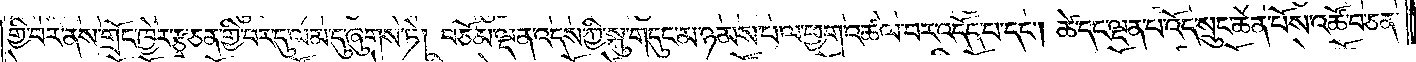གྱི་བར་ནས་གྲོང་ཁྱེར་རྩྭ་ཅན་གྱི་བར་དུ་ལམ་དུ་ཞུགས་ཏེ། བཅོམ་ལྡན་འདས་ཀྱི་སྐུ་གདུང་མ་ཉམས་པ་ལ་ཕྱག་འཚལ་བར་འདོད་པ་དང༌། ཚེ་དང་ལྡན་པ་འོད་སྲུང་ཆེན་པོས་འཚོ་བ་ཅན་
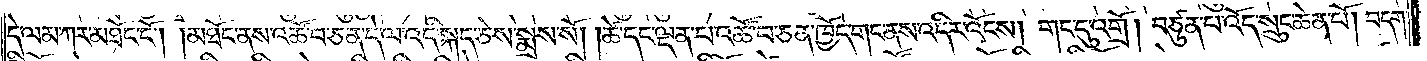དེ་ལམ་ཀར་མཐོང་ངོ༌། །མཐོང་ནས་འཚོ་བ་ཅན་དེ་ལ་འདི་སྐད་ཅེས་སྨྲས་སོ། །ཚེ་དང་ལྡན་པ་འཚོ་བ་ཅན་ཁྱོད་གང་ནས་འདིར་འོངས། གང་དུ་འགྲོ། བཙུན་པ་འོད་སྲུང་ཆེན་པོ། བདག་
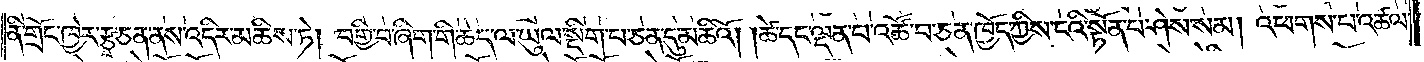ནི་གྲོང་ཁྱེར་རྩྭ་ཅན་ནས་འདིར་མཆིས་ཏེ། བགྱི་བ་ཞིག་གི་ཆེད་ལ་ཡུལ་སྡིག་པ་ཅན་དུ་མཆིའོ། །ཚེ་དང་ལྡན་པ་འཚོ་བ་ཅན་ཁྱོད་ཀྱིས་ངའི་སྟོན་པ་ཤེས་སམ། འཕགས་པ་འཚལ་
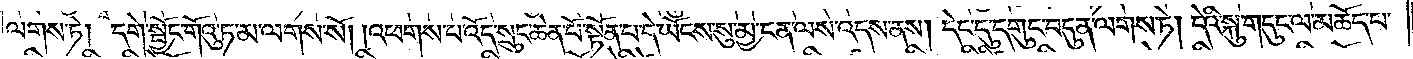ལགས་ཏེ། དགེ་སྦྱོང་གོའུ་ཏ་མ་ལགས་སོ། །འཕགས་པ་འོད་སྲུང་ཆེན་པོ་སྟོན་པ་དེ་ཡོངས་སུ་མྱ་ངན་ལས་འདས་ནས། དེང་དུ་དགུང་བདུན་ལགས་ཏེ། དེའི་སྐུ་གདུང་ལ་མཆོད་པ་
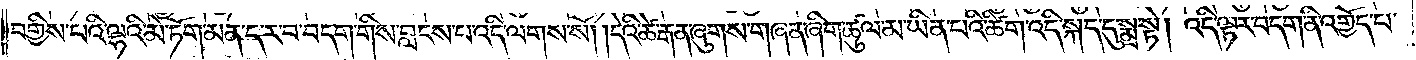བགྱིས་པའི་ལྷའི་མེ་ཏོག་མན་ད་ར་བ་བདག་གིས་བླངས་པ་འདི་ལགས་སོ། །དེའི་ཚེ་རྒན་ཞུགས་གཞན་ཞིག་ཚུལ་མ་ཡིན་པའི་ཚིག་འདི་སྐད་དུ་སྨྲ་སྟེ། འདི་ལྟར་བདག་ནི་འགྱོད་པ་
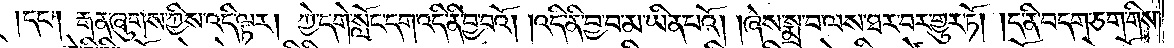།དང༌། རྒན་ཞུགས་ཀྱིས་འདི་ལྟར། ཀྱེ་དགེ་སློང་དག་འདི་ནི་བྱ་བའོ། །འདི་ནི་བྱ་བ་མ་ཡིན་པའོ། །ཞེས་སྨྲ་བ་ལས་ཐར་བར་གྱུར་ཏོ། །ད་ནི་བདག་ཅག་གིས་
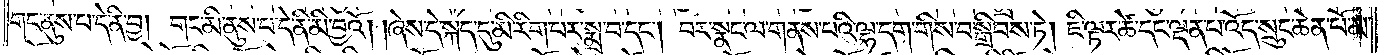གང་ནུས་པ་དེ་ནི་བྱ། གང་མི་ནུས་པ་དེ་ནི་མི་བྱའོ། །ཞེས་དེ་སྐད་དུ་མི་རིག་པར་སྨྲ་བ་དང༌། བར་སྣང་ལ་གནས་པའི་ལྷ་དག་གིས་བསྒྲིབས་ཏེ། ཇི་ལྟར་ཚེ་དང་ལྡན་པ་འོད་སྲུང་ཆེན་པོ་མ་
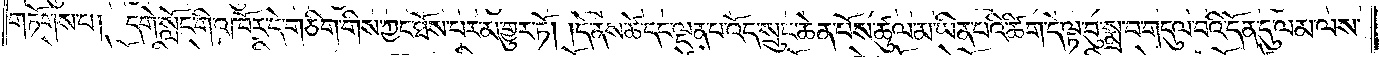གཏོགས་པ། དགེ་སློང་གི་འཁོར་དེ་གཅིག་གིས་ཀྱང་ཐོས་པར་མ་གྱུར་ཏོ། །དེ་ནས་ཚེ་དང་ལྡན་པ་འོད་སྲུང་ཆེན་པོས་ཚུལ་མ་ཡིན་པའི་ཚིག་དེ་ལྟ་བུ་སྨྲ་བ་གདུལ་བའི་དོན་དུ་ལམ་ལས་
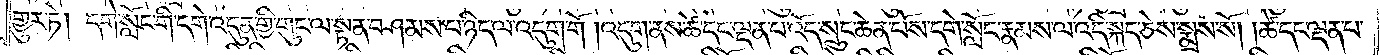གྱུར་ཏེ། དགེ་སློང་གི་དགེ་འདུན་གྱི་གུང་ལ་སྟན་བཤམས་པ་ཉིད་ལ་འདུག་གོ །འདུག་ནས་ཚེ་དང་ལྡན་པ་འོད་སྲུང་ཆེན་པོས་དགེ་སློང་རྣམས་ལ་འདི་སྐད་ཅེས་སྨྲས་སོ། །ཚེ་དང་ལྡན་པ་
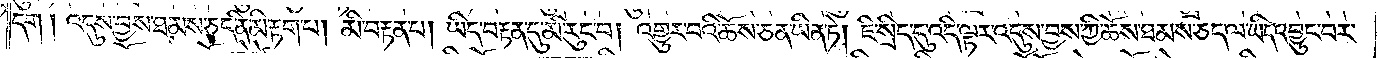དག། འདུས་བྱས་ཐམས་ཅད་ནི་མི་རྟག་པ། མི་བརྟན་པ། ཡིད་བརྟན་དུ་མི་རུང་བ། འགྱུར་བའི་ཆོས་ཅན་ཡིན་ཏེ། ཇི་སྲིད་དུ་འདི་ལྟར་འདུས་བྱས་ཀྱི་ཆོས་ཐམས་ཅད་ལ་ཡིད་འབྱུང་བར་
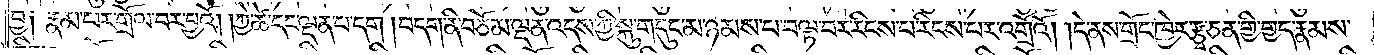བྱ༑ རྣམ་པར་གྲོལ་བར་བྱའོ། །ཀྱེ་ཚེ་དང་ལྡན་པ་དག །བདག་ནི་བཅོམ་ལྡན་འདས་ཀྱི་སྐུ་གདུང་མ་ཉམས་པ་བལྟ་བར་རིངས་པ་རིངས་པར་འགྲོའོ། །དེ་ནས་གྲོང་ཁྱེར་རྩྭ་ཅན་གྱི་གྱད་རྣམས་
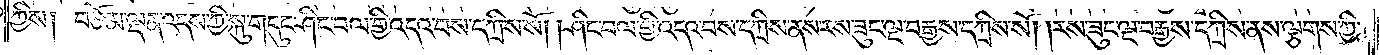ཀྱིས། བཅོམ་ལྡན་འདས་ཀྱི་སྐུ་གདུང་ཤིང་བལ་གྱི་འདའ་བས་དཀྲིས་སོ། །ཤིང་བལ་གྱི་འདའ་བས་དཀྲིས་ནས་རས་ཟུང་ལྔ་བརྒྱས་དཀྲིས་སོ། །རས་ཟུང་ལྔ་བརྒྱས་དཀྲིས་ནས་ལྕགས་ཀྱི་
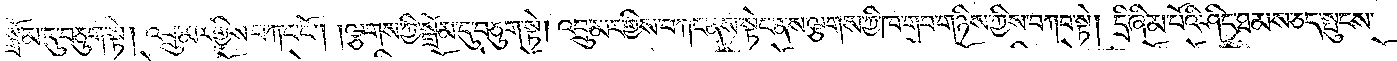སྒྲོམ་དུ་བཅུག་སྟེ། འབྲུ་མར་གྱིས་བཀང་ངོ༌། །ལྕགས་ཀྱི་སྒྲོམ་དུ་བཅུག་སྟེ། འབྲུ་མར་གྱིས་བཀང་ནས་སྟེང་ནས་ལྕགས་ཀྱི་ཁ་གབ་གཉིས་ཀྱིས་བཀབ་སྟེ། དྲི་ཞིམ་པོའི་ཤིང་ཐམས་ཅད་སྤུངས་
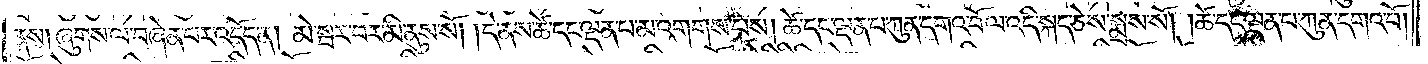ནས། ཞུགས་ལ་བཞེན་པར་འདོད་ན། མེ་སྦར་བར་མི་ནུས་སོ། །དེ་ནས་ཚེ་དང་ལྡན་པ་མ་འགགས་པས། ཚེ་དང་ལྡན་པ་ཀུན་དགའ་བོ་ལ་འདི་སྐད་ཅེས་སྨྲས་སོ། །ཚེ་དང་ལྡན་པ་ཀུན་དགའ་བོ།
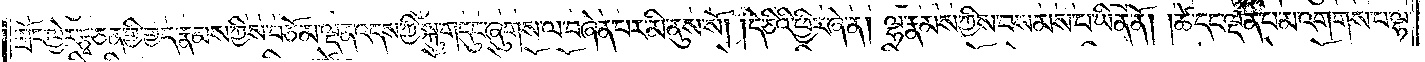གྲོང་ཁྱེར་རྩྭ་ཅན་གྱི་གྱད་རྣམས་ཀྱིས་བཅོམ་ལྡན་འདས་ཀྱི་སྐུ་གདུང་ཞུགས་ལ་བཞེན་པར་མི་ནུས་སོ། །དེ་ཅིའི་ཕྱིར་ཞེ་ན། ལྷ་རྣམས་ཀྱིས་བསམས་པ་ཡིན་ནོ། །ཚེ་དང་ལྡན་པ་མ་འགགས་པ་ལྷ་
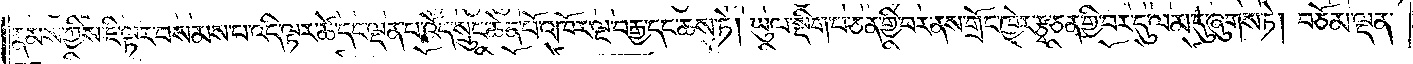རྣམས་ཀྱིས་ཇི་ལྟར་བསམས་པ་འདི་ལྟར་ཚེ་དང་ལྡན་པ་འོད་སྲུང་ཆེན་པོ་འཁོར་ལྔ་བརྒྱ་དང་ཆས་ཏེ། ཡུལ་སྡིག་པ་ཅན་གྱི་བར་ནས་གྲོང་ཁྱེར་རྩྭ་ཅན་གྱི་བར་དུ་ལམ་དུ་ཞུགས་ཏེ། བཅོམ་ལྡན་
